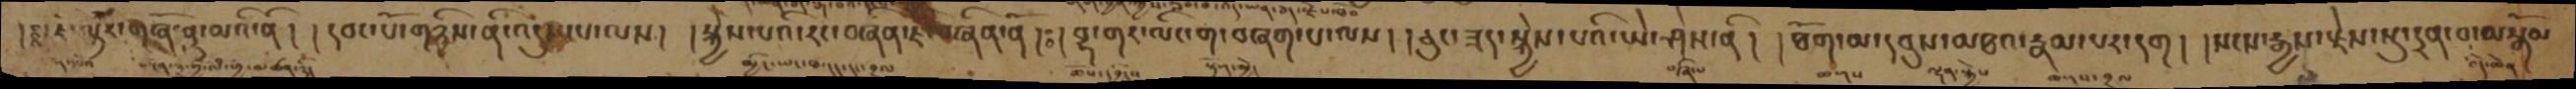།ཿ  །ཇི་ལྟར་གཞོ་ནུ་མའི་ནི། །དབང་པོ་གཉིས་ནི་འདུས་པ་ལས། །སྐྱེས་པའི་རང་བཞིན་ཇི་བཞིན་ནོ།ཿ །བྷ་གར་ལིང་ག་བཞག་པ་ལས། །ཅུང་ཟད་སྐྱེས་པའི་ཡེ་ཤེས་ནི། །ཐོག་མ་དབུས་མཐའ་རྣམ་པར་དག། །སངས་རྒྱས་རྗེས་སུ་དྲན་པ་མསྒོམ
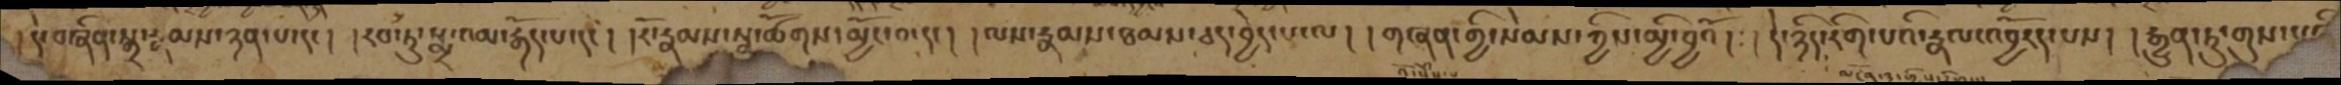། དེ་བཞིན་སྒྲ་རྣམས་ཉན་པ་དང། །རབ་ཏུ་སྨྲ་འམ་རྒོད་པ་དང། །རོ་རྣམས་སྣ་ཚོགས་མྱོང་བ་དང། །ལས་རྣམས་ཐམས་ཅད་བྱེད་པ་ལ། །གཞན་གྱི་སེམས་ཀྱིས་མྱི་བྱའོ། །དེ་ཉིད་རིག་པའི་རྣལ་འབྱོརད་པས། །རྒྱུན་ཏུ་གུས་པའི་
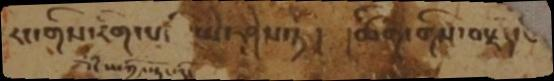རང་གིས་རིག་པ་ ཡེ་ཤེས་ཏེ། །ཚིག་གིས་བརྗོད་པ
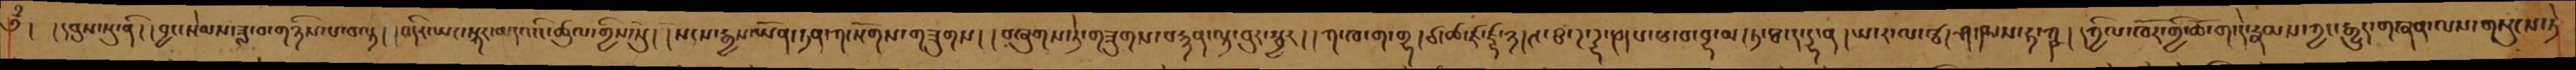༄ྃ། །དབུས་སུ་ནི། །བྱང་སེམས་ཟླ་བ་གཉིས་པ་བལྟ། །འདིར་ཡང་སྐར་མདའའི་ཚུལ་གྱིས་སུ། །སངས་རྒྱས་ཡོན་ཏན་ཀ་སོགས་གཟུགས། །བཞུགས་ཏེ་གཟུགས་བརྙན་ལྟ་བུར་སྦྱར། །ཀ་ཁ་ག་གྷ། ཙ་ཚ་ཛ་ཛྷ་྅།ཊ་ཋ་ཌ་ཌྷ་ཎ།པ་ཕ་བ་བྷ་མ།ཏ་ཐ་ད་དྷ་ན།ཡ་ར་ལ་ཝ།ཤ་ཥ་ས་ཧ་ཀྵ། དཀྱིལ་འཁོར་གྱི་ཆོ་ག་དེ་རྣམས་ཀྱང་རྒྱུད་གཞན་ལས་གསུངས་ཏེ
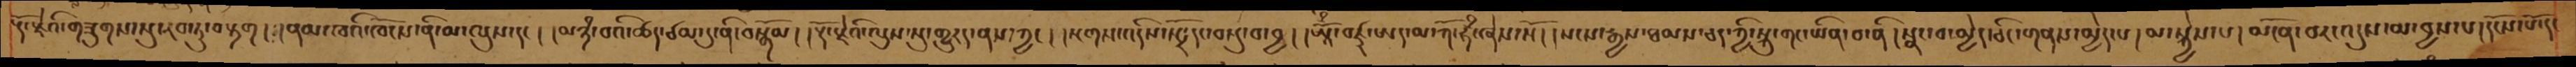རྡོ་རྗེའི་གཟུགས་སུ་རབ་ཏུ་བརྟག། །ནམ་ཁའི་ཁོངས་ནི་མ་ལུས་དང། །མཉཾ་བའི་ཆེད་ཙམ་དུ་ནི་བསྒོམ། །རྡོ་རྗེའི་ལུས་སུ་གྱུརད་ནས་ཀྱང། །སྔགས་འདིས་སྤྲོ་དང་བསྡུ་བ་བྱ། །ཨཱོྃ་བཛྲ་ཨད་མ་ཀོ་ཧྃ་ཞེས་སོ། །སངས་རྒྱས་ཐམས་ཅད་ཀྱི་སྐུ་གང་ཡིན་བ་ནི། སྣང་བ་མྱེད་ཅིང་གནས་མྱེད་པ། མ་སྐྱེས་པ། མངོན་བར་འདུས་མ་བྱས་པ།དངོས་པོ་དང
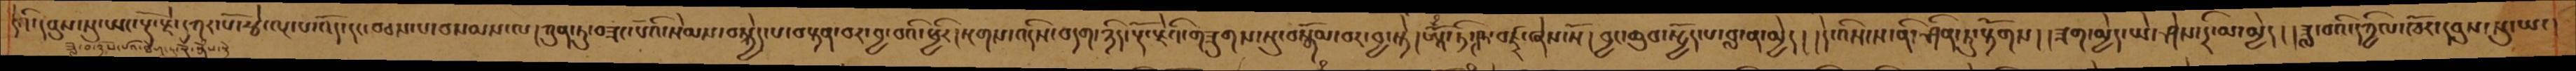དེའི་དབུས་སུ་ཡང་རྡོ་རྗེ་དཀར་པོ་རྩེ་ལྔ་པ་འོད་དང་བཅས་པ་བསམས་ལ། ཀུན་ཏུ་བཟང་པོའི་སེམས་བསྐྱེད་པ་བསྟན་བར་བྱ་བའི་ཕྱིར། སྔགས་འདིས་བདག་ཉིད་རྡོ་རྗེའི་གཟུགས་སུ་བསྒོམ་བར་བྱ་སྟེ། ཨཱོྃ་ཏི་ཤ་ྚབཛྲ་ཞེས་སོ། བྱང་ཆུབ་སྤྱོད་པ་བླ་ན་མྱེད། །དེ་འིས་ས་ནི་ཤིན་ཏུ་རྟོགས། །ཟག་མྱེད་ཡེ་ཤེས་དྲི་མ་མྱེད། །ཟླ་བའི་དཀྱིལ་འཁོར་དབུས་སུ་ཡང།
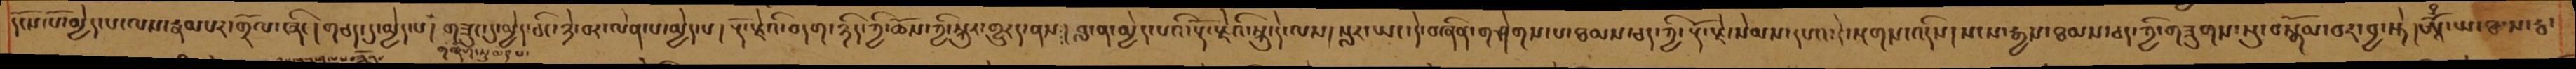དངོས་པོ་མྱེད་པ་ལས་རྣམ་པར་གྲོལ་ཞིང །གཅད་དུ་མྱེད་པ། གཟུང་དུ་མྱེད་ཅིང་ཉེ་བར་ལེན་པ་མྱེད་པ། རྡོ་རྗེའི་བདག་ཉིད་ཀྱི་ཆོས་ཀྱི་སྐུར་གྱུརད་ནས། བླ་ན་མྱེད་པའི་རྡོ་རྗེའི་སྐུ་དེ་ལས། སླར་ཡང་དེ་བཞིན་གཤེགས་པ་ཐམས་ཅད་ཀྱི་རྡོ་རྗེ་སེམས་དཔའ་དེ་སྔགས་འདིས། སངས་རྒྱས་ཐམས་ཅད་ཀྱི་གཟུགས་སུ་བསྒོམ་པར་བྱ་སྟེ། ཨཱོྃ་ཡ་ཐ་ས་རྦ་
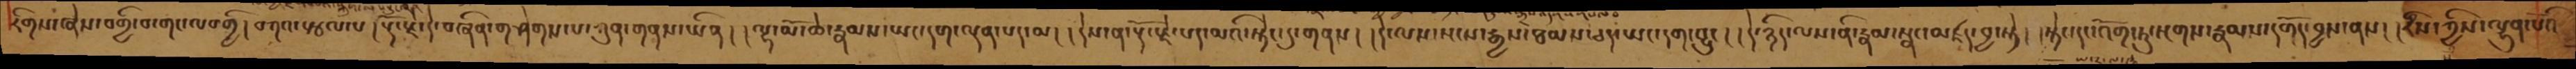རིགས་ཞེས་བགྱི་བ་གང་ལ་བགྱི། བཀའ་སྩལ་པ། རྡོ་རྗེ་དེ་བཞིན་གཤེགས་པ་ཀུན་གནས་ཡིན། །ལྷ་མོ་ཆེ་རྣམས་ཡང་དག་ལྡན་པད་མ། དེས་ན་རྡོ་རྗེ་པད་མའི་སྙིང་དུ་གནས། །དེ་ལས་སངས་རྒྱས་ཐམས་ཅད་ཡང་དག་བྱུང། །དེ་ཉིད་ལས་ནི་རྣམ་སྣང་མཛད་བྱ་སྟེ། །སྟེང་དང་འོག་ཏུ་སྔགས་རྣམས་དགོད་བྱས་ནས། རིས་ཀྱིས་ལྷུན་པོའི
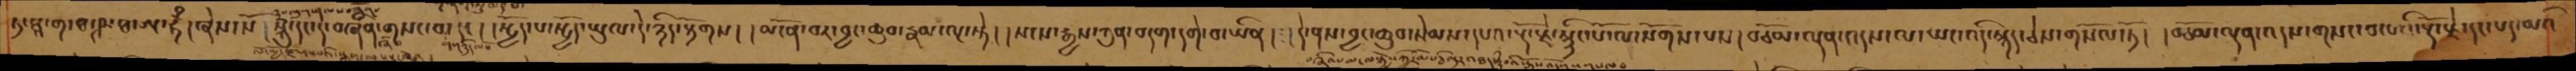ཏ་ཐཱ་ག་ཐ་ཥ་ཐ་ཨ་ཧྃ། ཞེས་སོ། སྐུ་དང་དེ་བཞིན་གསང་བ་དང། །སྤྱོད་པ་སྤྱོད་ཡུལ་དེ་ཉིད་རྟོགས། །མངོན་བར་བྱང་ཆུབ་རྣམ་ལྔ་སྟེ། །སངས་རྒྱས་ཀུན་བདག་དགེ་བ་ཡིན། །དེ་ནས་བྱང་ཆུབ་སེམས་དཔའ་རྡོ་རྗེ་སྙིང་པོ་ལསོགས་པས། བཅོམ་ལྡན་འདས་ལ་ཡང་འདི་སྐད་ཅེས་གསོལ་ཏོ། །བཅོམ་ལྡན་འདས་གསང་བ་པའི་རྡོ་རྗེ་དང་པད་མའི
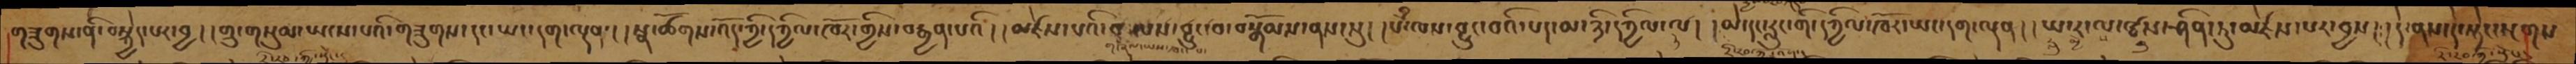གཟུགས་ནི་བསྙེད་པར་བྱ།།གྲུ་གསུམ་ཡངས་པའི་གཟུགས་དང་ཡང་དག་ལྡན། །སྣ་ཚོགས་འོད་ཀྱི་དཀྱིལ་འཁོར་གྱིས་བརྒྱན་པའོ།།མཛེས་པའི་བ་ལས་བྱུང་བ་བསྒོམས་ནས་སུ། པྃ་ལས་བྱུང་བའི་པད་མ་ཉི་དཀྱིལ་ལ།།མེ་དང་རླུང་གི་དཀྱིལ་འཁོར་ཡང་དག་ལྡན།།ཡ་ར་ལ་ཝས་ཤིན་ཏུ་མཛེས་པར་བྱས། །དེ་ནས་དེ་སྟེང་སྔགས
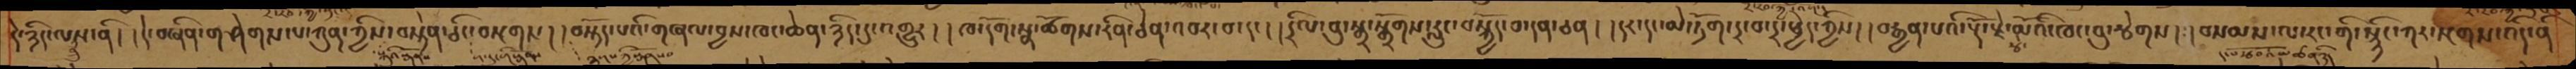དེ་ཉིད་ལས་ནི།།དེ་བཞིན་གཤེགས་པ་ཀུན་ཀྱིས་བསྟེན་ཅིང་བསྔགས།།བསྟོད་པའི་གཞལ་བྱས་ཁང་ཆེན་ཉིད་དུ་འགྱུར། །ཁ་དོག་སྣ་ཚོགས་རིན་ཅེན་འབར་བ་དང་།།དྲིལ་བུ་སྒྲ་སྒྲོགས་རླུང་བསྐྱོད་བ་དན་ཅན།།དར་དང་མེ་ཏོག་དྲ་བ་དྲ་ཕྱེད་ཀྱིས།།བརྒྱན་པའི་རྡོ་རྗེ་མོའི་ཁང་བུ་རྩེགས།།བསམས་ལ་རང་གི་སྙིང་ཀར་སྔགས་འདི་ནི
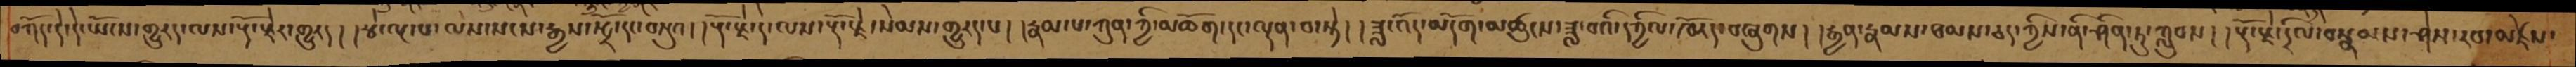བཀོད་དེ་དེ་ཡོངས་གྱུརད་ལས་རྡོ་རྗེར་འགྱུར།།རྩེ་ལྔ་པ་ལས་སངས་རྒྱས་སྤྲོ་དང་བསྡུའ།།རྡོ་རྗེ་དེ་ལས་རྡོ་རྗེ་སེམས་གྱུརད་པ།།རྣམ་པ་ཀུན་ཀྱི་མཆོག་དང་ལྡན་པ་སྟེ།།ཟླ་འོད་མདོག་མཚུངས་ཟླ་བའི་དཀྱིལ་འཁོར་བཞུགས།།རྒྱན་རྣམས་ཐམས་ཅད་ཀྱིས་ནི་ཤིན་ཏུ་ཀླུབས།།རྡོ་རྗེ་དྲིལ་བསྣམས་ཤེས་རབ་མཛེས་
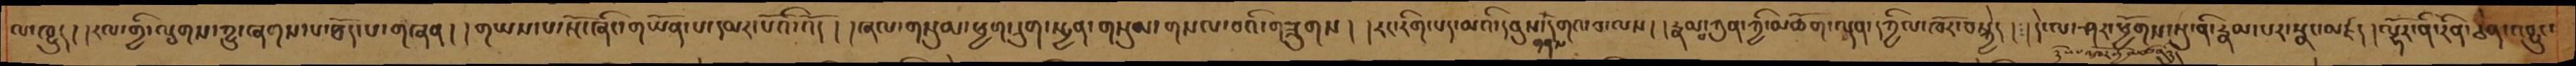ལ་ཁྱུད། །རལ་གྱི་ལྕགས་ཀྱུ་ཞགས་པ་ཐོད་པ་གཞན། །གཡས་པ་སྔོ་ཞིང་གཡོན་པ་དམར་པོའི་འོད ། །ཞལ་གསུམ་ཕྱག་དྲུག་སྤྱན་གསུམ་གསལ་བའི་གཟུགས། །རང་རིག་པད་མའི་དབུས་གནས་དགེའ་བ་ལས། །རྣམ་པ་ཀུན་ཀྱི་མཆོག་ལྡན་དཀྱིལ་ཁོར་བསྐྱེད། །དེ་ལ་ཤར་ཕྱོགས་སུ་ནི་རྣམ་པར་སྣང་མཛད། །ལྷོར་ནི་རིན་ཅེན་འབྱུང་
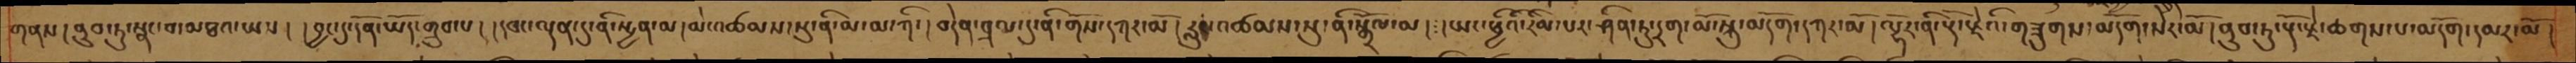གནས། ནུབ་ཏུ་སྣང་བ་མཐའ་ཡས། །བྱང་དུ་དོན་ཡོད་གྲུབ་པ། །དབང་ལྡན་དུ་ནི་སྤྱན་མ། མེ་འཚམས་སུ་ནི་མ་མ་ཀི་། བདེན་བྲལ་དུ་ནི་གོས་དཀར་མོ། རླུང་འཚམས་སུ་ནི་སྒྲོལ་མ། །ཡང་ཕྱིའི་རིམ་པར་ཤིན་ཏུ་དྲག་མོ་སྐུ་མདོག་དཀར་མོ། ལྷོར་ནི་རྡོ་རྗེའི་གཟུགས་མདོག་སེར་མོ། ནུབ་ཏུ་རྡོ་རྗེ་ཆགས་པ་མདོག་དམར་མོ།
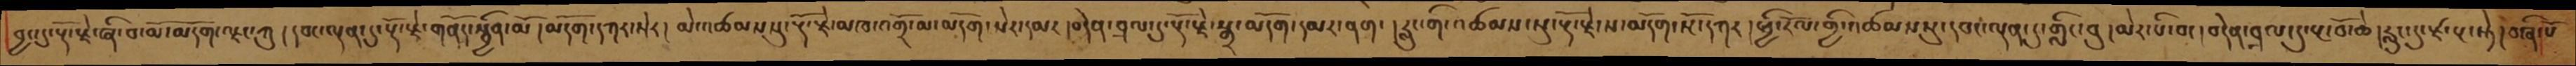བྱང་དུ་རྡོ་རྗེ་ཞི་བ་མོ་མདོག་ལྗང་ཀུ། དབང་ལྡན་དུ་རྡོ་རྗེ་གནོད་སྦྱིན་མོ ། མདོག་དཀར་སེར། མེ་འཚམསསུ་རྡོ་རྗེ་མཁ་འགྲོ་མ་མདོག་སེར་དམར། བདེན་བྲལ་དུ་རྡོ་རྗེ་སྒྲ་མདོག་དམར་ནག་ ། རླུང་གི་འཚམས་སུ་རྡོ་རྗེ་ས་མདོག་སྔོ་དཀར།  ཕྱི་རོལ་གྱི་འཚམསསུ་དབང་ལྡན་དུ་གླིང་བུ།མེར་པི་བང། བདེན་བྲལ་དུ་རྔ་བོ་ཆེ། རླུང་དུ་རྫ་རྔ་སྟེ། བཞི་པོ
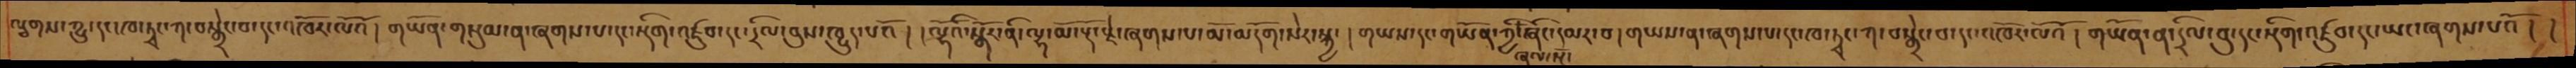ལྕགས་ཀྱུ་དང་ཁ་ཏྭང་ཀ་བསྒྲེང་བ་དང་འཁོར་ལོའོ ། གཡོན་གསུམ་ན་ཞགས་པ་དང་སྡིག་བཛུབ་དང་དྲིལ་བུས་ཁྱུད་པའོ ། །ལྷོའི་སྒོར་ནི་ལྷ་མོ་རྡོ་རྗེ་ཞགས་པ་མོ་མདོག་སེར་སྐྱ་ ། གཡས་དང་གཡོན་ཀྱི་ཞིང་དམར་བ། གཡས་ན་ཞགས་པ་དང་ཁ་ཏྭང་ཀ་བསྒྲེང་བ་དང་འཁོར་ལོའོ ། གཡོན་ན་དྲིལ་བུ་དང་སྡིག་འཛུབ་དང་ཡང་ཞགས་པའོ ། །
